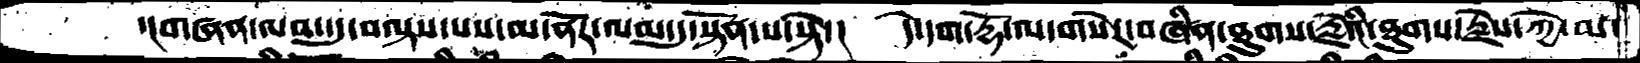་།གཞན་ལམ་དུ་བལྟས་པས་མ་ནོར་ལམ་དུ་སྟོན་པ་སྟེ་།    དེ་དག་རྡོ་ལ་གསེར་བཞིན་ཐུགས་རྗེའི་ཐུགས་རྗེས་ཀྱེ་མ་
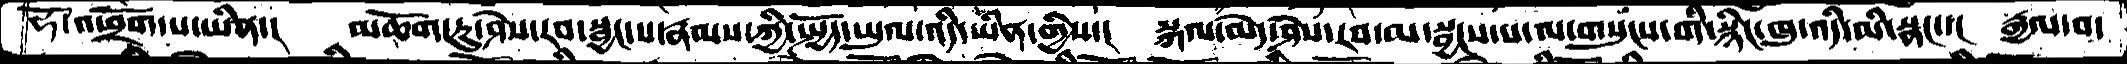ཧོ་འཕྲོག་པ་ཡིན་།   མཆོག་ཏུ་ཤེས་རབ་སྦྱང་པ་རྣམས་ཀྱི་སྤྱོད་ཡུལ་འདི་ཡིན་གྱིས་།   སྐལ་མེད་ཤེས་རབ་མ་སྦྱངས་ས་ལ་གསུངས་གི་སྙིང་ཁུ་འདི་མི་སྣང་་།   རྒྱལ་བ་
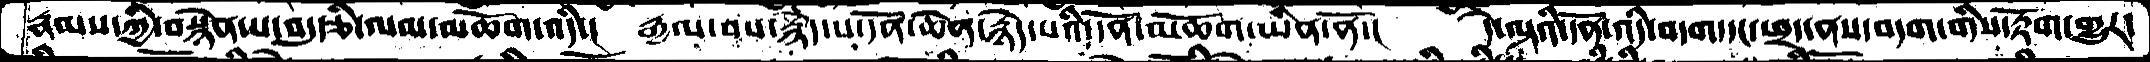རྣམས་ཀྱི་བསྙེན་པ་བདུ་རྩི་ལམ་མཆོག་འདི་།   རྒྱལ་བས་རྙེད་པ་དོན་ཆེན་རྙེད་པའི་དོན་མཆོག་ཡིན་ནོ་།     དེ་ལྟའི་དོན་འདི་བདག་དང་ཕྲད་ནས་བདག་གིས་རྟོག་གྱུར་
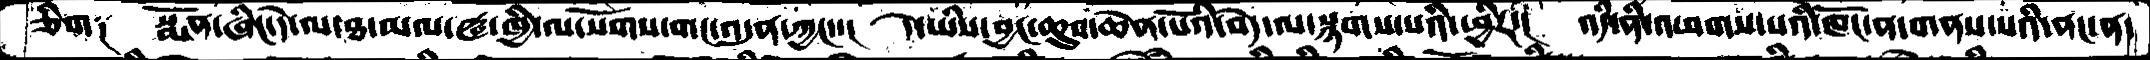ཅིག༑  སྨོན་ཞིང་དེ་ལ་ཐ་མལ་ཝ་ཁྱི་ལ་སོགས་གང་འདུན་ཀྱང་་།  དེ་ཡིས་བྱང་ཆུབ་ཆེན་པོའི་བདེ་ལ་སྙགས་པའི་ཕྱིར་།  འདི་ནི་འཕགས་པའི་ཁོང་ན་གནས་པའི་ནང་ན་
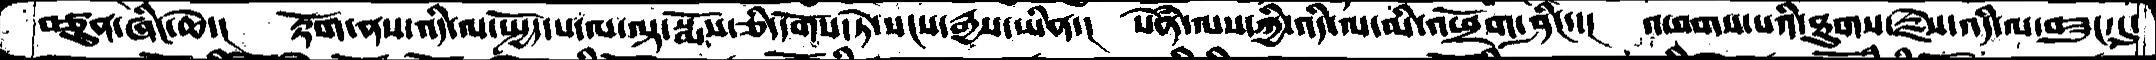བཙུན་ཞིང་ཆེ་།  རྟོག་ནས་འདི་ལ་སྤྱོད་པ་ལ་ལྟ་སྨོས་ཅི་དགོས་ཏེ་སངས་རྒྱས་ཡིན་།  སེཾན་ལས་ཀྱི་འདི་ལ་མི་འཕྲོག་ཤིང་་།  འཕགས་པའི་ཐུགས་རྗེས་འདི་ལ་བཟུང་དུ་
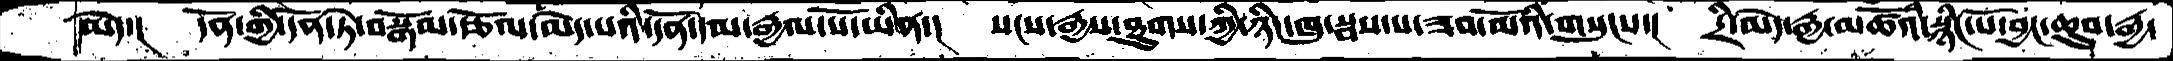མེད་།  དོན་གྱི་དོན་ཏེ་བསྒོམ་རྩོལ་མེད་པའི་དོན་དམ་རྒྱལ་པོ་ཡིན་།  སངས་རྒྱས་ཐུགས་ཀྱི་ཉིང་ཁུ་སྦས་པ་ཟབ་མོའི་གསུངས་།  དྲི་མེད་རྒྱ་མཚོའི་སྙིང་པོ་བྱང་ཆུབ་རྒྱ་
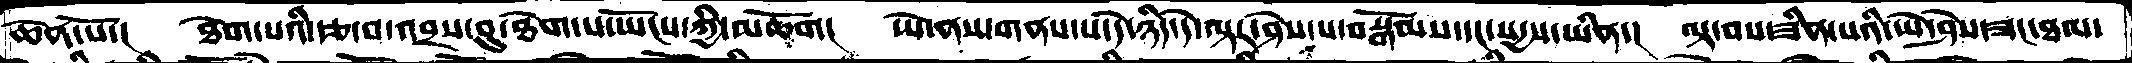ཆེན་པོ་།  ཐེག་པའི་རྩ་བ་འབྲས་བུ་ཐེག་པ་ཡོངས་ཀྱི་མཆོག།  ཡེ་ནས་གནས་པ་དེ་ཉིད་དེ་ལྟར་ཤེས་པ་བསྒོམས་དང་སདྱས་ཡིན་།  ལྟ་བས་ཟིན་པའི་ཡེ་ཤེས་ཟང་ཐལ་
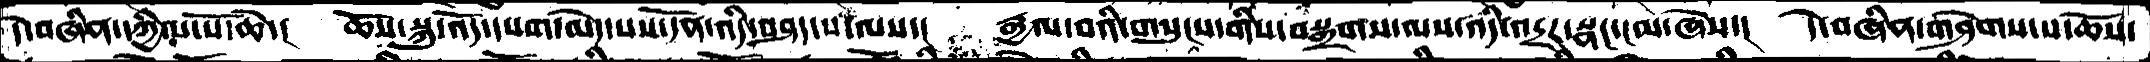དེ་བཞིན་དཀྱིལ་པོ་ཆེ་།  ཆོས་སྐུ་འོད་དཔག་མེད་པས་དོན་འདི་བཤད་པ་ལས་།  རྒྱལ་བའི་གསུངས་གིས་བསྒྲགས་ལས་འདི་འདྲར་སྣང་ངམ་ཞེས་།  དེ་བཞིན་གཤེགས་པ་ཆོས་
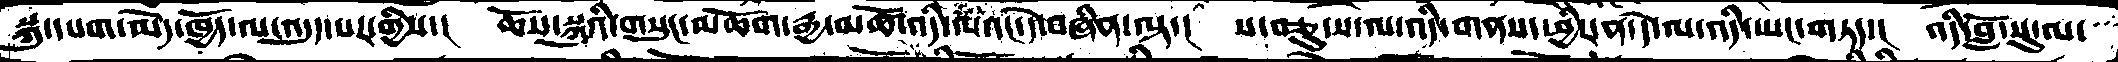སྐུ་དཔག་མེད་ཁྱོད་ལ་འདུད་པར་གྱིས་།  ཆོས་སྐུའི་གསུང་མཆོག་མཚོ་འདི་ལའང་དེ་བཞིན་ལྟ་།  ས་བཅུ་ས་ལ་འདི་གནས་ཕྱིར་ན་དེ་ལ་འདི་ཡང་གཏད་།  འདི་བློ་སུ་ལ་
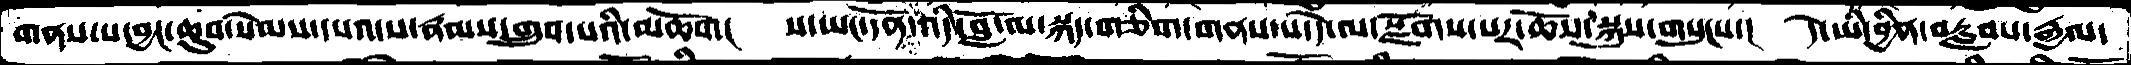གནས་པ་བྱང་ཆུབ་སེམས་དཔའ་ས་རྣམས་གྲུབ་པའི་མཆོག།  ས་ཡང་དོན་འདི་བློ་ལ་སྐད་གཅིག་གནས་པ་དེ་ལ་སྫོགས་པར་ཆོས་སྐུས་གསུངས་།  དེ་ཡི་བྱིན་བརླབས་རྒྱལ་
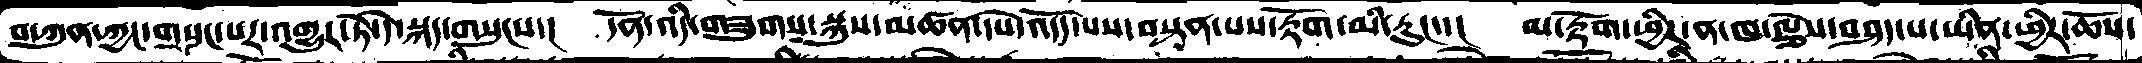བ་ཀུན་ཀྱང་གསུང་པར་འགྱུར་ཏེ་དེ་སྐད་གསུངས་།  དོན་འདི་གཟུགས་སྐུས་མཚན་དཔེ་འདོད་པས་བསྟན་པས་རྟོག་མི་རུང་་།  མ་རྟོག་ཕྱིར་ན་ཁ་ལྕེས་བཤད་པ་ཡིན་ཕྱིར་ཆོས་
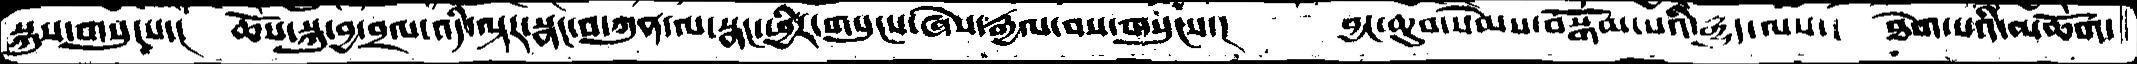སྐུས་གསུངས་།  ཆོས་སྐུ་བྱ་བྲལ་འདི་ལྟར་སྣང་བ་ཀུན་ལ་སྣང་ཕྱིར་གསུངས་ཞེས་རྒྱལ་བས་གསུངས་།  བྱང་ཆུབ་སེམས་བསྒོམ་པའི་རྒྱུད་ལས་།  ཐེག་པའི་མཆོག་
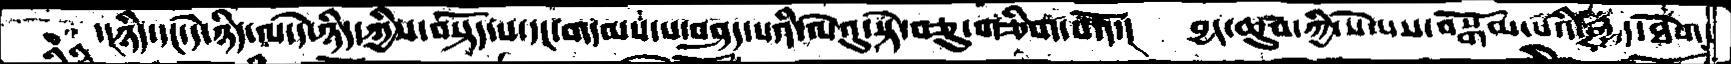་།ཉིད་དང་དེ་ཉིད་ལ་དེ་ཉིད་ཀྱིས་བསྟོད་པ་དང་གདམས་པ་བཤད་པའི་ལེའུ་སྟེ་བཅུ་གཅིག་པའོ་།  བྱང་ཆུབ་ཀྱི་སེམས་བསྒོམ་པའི་རྒྱུད་ཐེག་
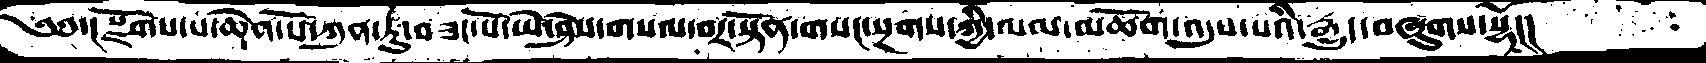༄༅་། སྫོགས་པ་ཆེན་པོ་ཀུན་ཏུ་བཟང་པོ་ཡེ་ཤེས་གསལ་བར་སྟོན་གསང་སྔགས་ཀྱི་ལམ་མཆོག་འདུས་པའི་རྒྱུད་བཞུགས་སྷོ།།།
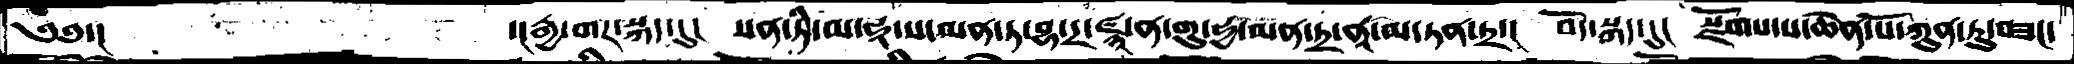༄༅་།      ་།རྒྱ་གར་སྐད་དུ།  སན་ཏི་མ་ཧཱ་ས་མན་ཏ་བྷ་དྲ་ཛྙཱ་ན་གུ་ཧྱ་མན་ཏྲ་ནཱ་མ་ཏན་ཏྲ་།  བོད་སྐད་དུ།  སྫོགས་པ་ཆེན་པོ་ཀུན་ཏུ་བཟང་
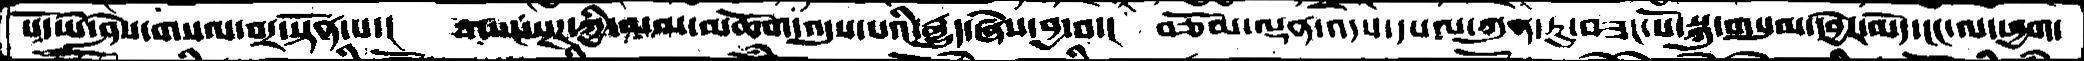པོ་ཡེ་ཤེས་གསལ་བར་སྟོན་པ་།  གསང་སྔཌ་ཀྱི་ལམ་མཆོག་འདུས་པའི་རྒྱུད་ཞེས་བྱ་བ་།  བཅོམ་ལྡན་འདས་དཔལ་ཀུན་ཏུ་བཟང་པོ་སྐུ་གསུམ་དབྱེར་མདེ་ངང་ལ་ཕྱག་
